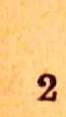2
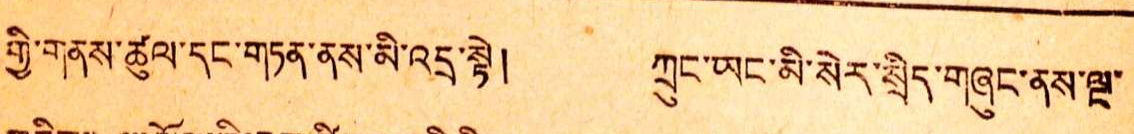གྱི་གནས་ཚུལ་དང་གཏན་ནས་མི་འདྲ་སྟེ། ཀྲུང་ཡང་མི་སེར་སྲིད་གཞུང་ནས་ལྔ་
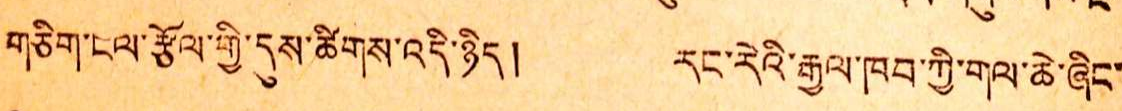གཅིག་ངལ་རྩོལ་གྱི་དུས་ཚིགས་འདི་ཉིད། རང་རེའི་རྒྱལ་ཁབ་ཀྱི་གལ་ཆེ་ཞིང་
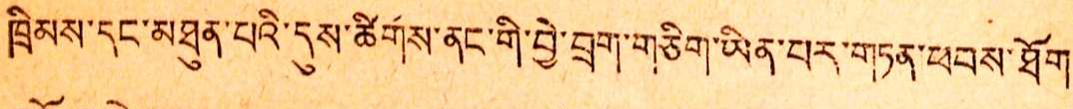ཁྲིམས་དང་མཐུན་པའི་དུས་ཚིགས་ནང་གི་བྱེ་བྲག་གཅིག་ཡིན་པར་གཏན་ཕབས་ཐོག
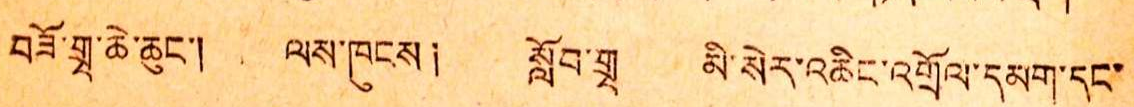བཟོ་གྲྭ་ཆེ་ཆུང་། ལས་ཁུངས། སློབ་གྲྭ མི་སེར་འཆིང་འགྲོལ་དམག་དང་
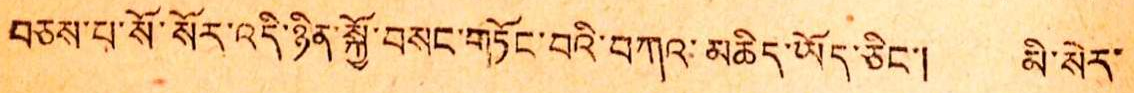བཅས་པ་སོ་སོར་འདི་ཉིན་སྐྱོ་བསང་གཏོང་བའི་བཀའ་མཆིད་ཡོད་ཅིང་། མི་སེར་
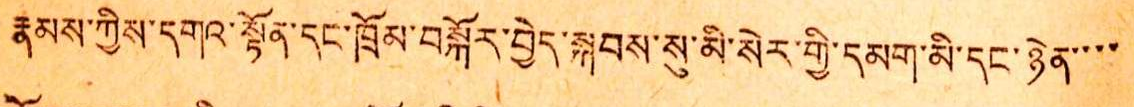རྣམས་ཀྱི་དགའ་སྟོན་དང་ཁྲོམ་བསྐོར་བྱེད་སྐབས་སུ་མི་སེར་གྱི་དམག་མི་དང་ཉིན་་་་
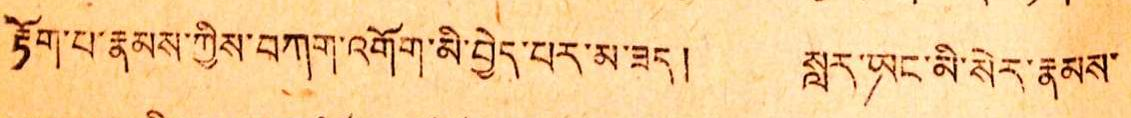རྟོག་ལ་རྣམས་ཀྱིས་བཀས་འགོག་མི་བྱེད་པར་མ་ཟད། སླར་ཡང་མི་སེར་རྣམས་
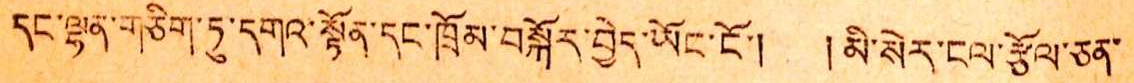དང་ལྷན་གཅིག་ཏུ་དགའ་སྟོན་དང་ཁྲོམ་བསྐོར་བྱེད་ཡོང་ངོ་། །མི་སེར་ངལ་རྩོལ་ཅན་
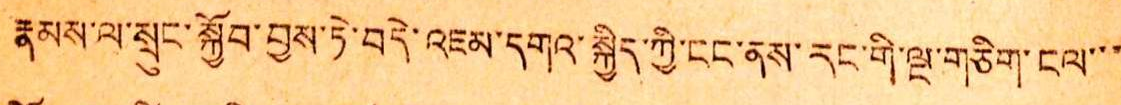རྣམས་ལ་སྲུང་སྐྱོབ་བྱས་ཏེ་བདེ་འཇམ་དགའ་སྐྱིད་ཀྱི་ངང་ནས་རང་གི་ལྔ་གཅིག་ངལ་་་
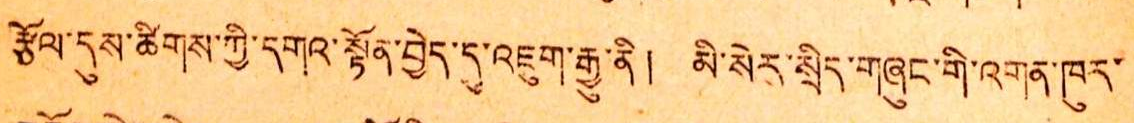རྩོམ་དུས་ཚིགས་ཀྱི་དགའ་སྟོན་བྱེད་དུ་འཇུག་རྒྱུ་ནི། མི་སེར་སྲིད་གཞུང་གི་འགན་ཁུར་
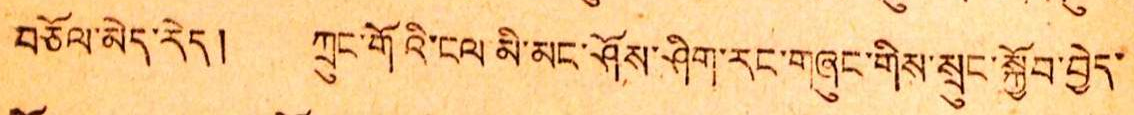བཅོལ་མེད་རེད། ཀྲུང་གོའི་ངལ་མི་མང་ཤོས་ཤིག་རང་གཞུང་གིས་སྲུང་སྐྱོབ་བྱེད་
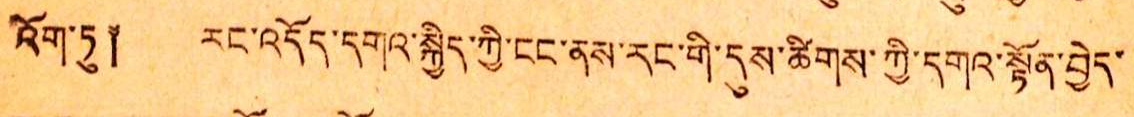འོག་ཏུ༈ རང་འདོད་དགའ་སྐྱིད་ཀྱི་ངང་ནས་རང་གི་དུས་ཚིགས་ཀྱི་དགའ་སྟོན་བྱེད་
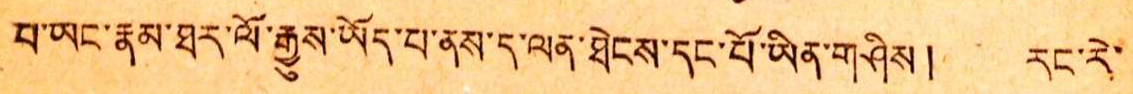པ་ཡང་རྣམ་ཐར་ལོ་རྒྱུས་ཡོད་པ་ནས་ད་ལན་ཐེངས་དང་པོ་ཡིན་གཤིས། རང་རེ་
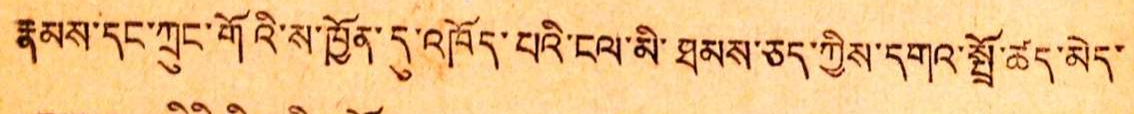རྣམས་དང་ཀྲུང་གོའི་ས་ཁྱོན་དུ་འཁོད་པའི་ངལ་མི་ཐམས་ཐད་ཀྱིས་དགའ་སྤྲོ་ཚད་མེད་
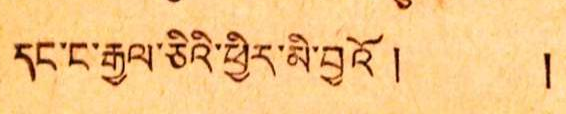དང་ང་རྒྱལ་ཅིའི་ཕྱིར་མི་བྱའོ ། །
